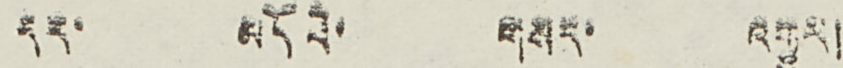དར་ མདོའི་ གསར་ འགྱུར་།
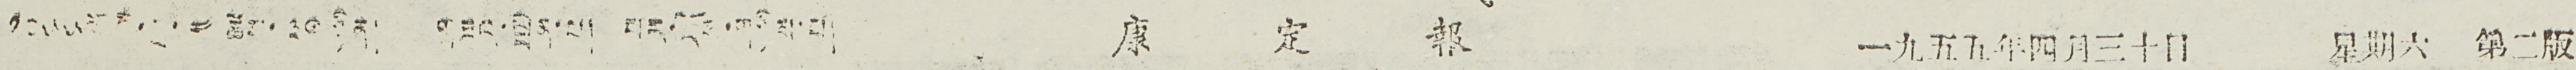༡༩༥༥ ལོའི་ཟླ་ ༤ ཚེས་ ༣༠ ཉིན། གཟའ་སྤེན་པ། པར་ངོས་གཉིས་པ། 康 定 報 一九五五年四月三十日 星期六 第二版
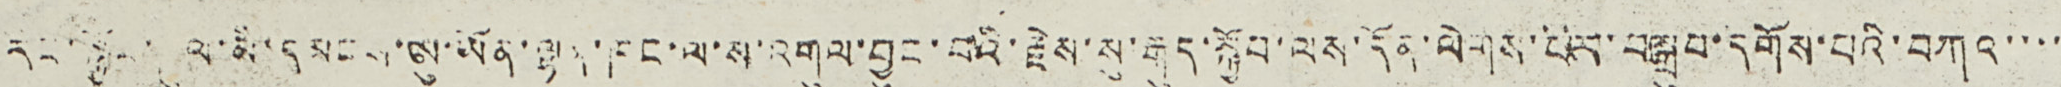རང་སྐྱོང་ཁུལ་མི་དམངས་ཨུ་ཡོན་ལྷན་ཁང་ལ་ས་འགུལ་བྱུང་བའི་རྗེས་སུ་རྒུད་སྐྱོབ་ལས་དོན་ལེགས་པར་བསྒྲུབ་དགོས་པའི་བཀའ་་་་
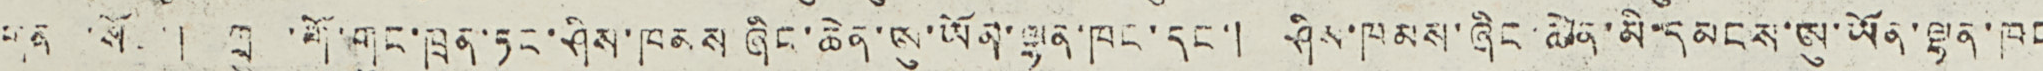གན ་སོང་། ཀྲུང་གོ་གུང་ཁྲན་ཏང་ཤིས་ཁམས ཞིང་ཆེན་ཨུ་ཡོན་ལྷན་ཁང་དང་། ཤིས་ཁམས་ཞིང་ཆེན་མི་དམངས་ཨུ་ཡོན་ལྷན་ཁང
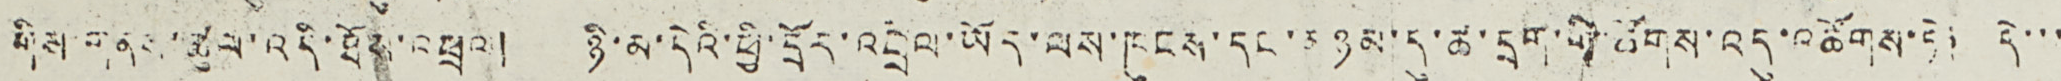གིས་གནས་ཚུལ་འདི་ཐོས་འཕྲལ། ཉི་མ་དེའི་ཕྱི་དྲོར་འབྲལ་ཡོད་ལས་ཁུངས་དང་མཉམ་དུ་ཚ་དྲག་གི་ཚོགས་འདུ་འཚོགས་ཏེ། དེ་་་
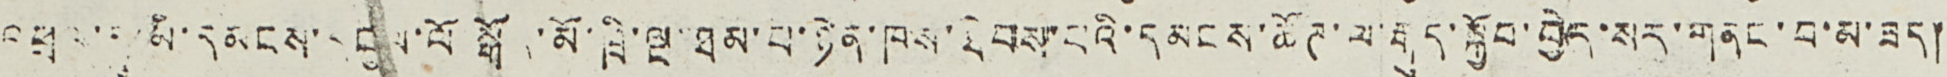འཕྲལ་དུ་མི་དམངས་བྱལ་ལོ སྒོར་མོ་ཁྲི་ལྔ་ཐམ་པ་ཉེན་ཁས་ཐེབས་པའི་དམངས་ཚོཊ་ལ་རྒུད་སྐྱོབ་བྱེད་སར་གནང་བ་མ་ཟད།
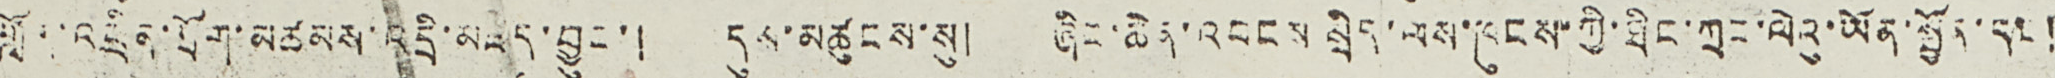གློག་འཕྲིན་ཐོག་མཚམས་འདྲི་མཛད་བྱུང་། དུས་མཚུངས་སུ། ཞིང་ཆེན་འབངས་སྲིད་ལས་ཁུངས་ཀྱི་ཐིང་ཀྲང་ལེའུ་ཡོན་སྤྱོན་དང །
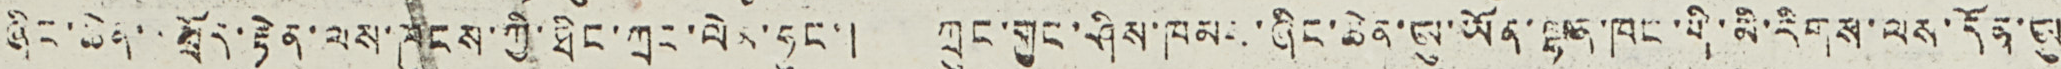ཞིང་ཆེན་འཕྲོད་རྟེན་ལས་ཁུངས་ཀྱི་ཐིང་ཀྲང་ལེམ་ཧུང་། ཀྲུང་གུང་ཤིས་ཁམས་ཞིང་ཆེན་ཨུ་ཡོན་ལྷན་ཁང་གི་མི་རིགས་ལས་དོན་ཨུ
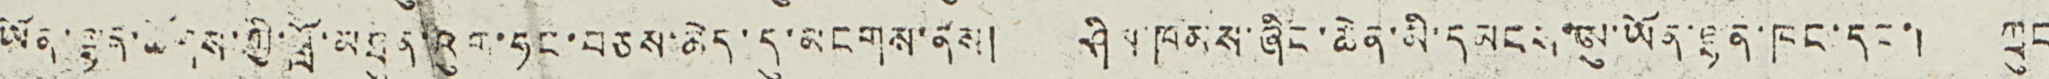ཡོན་ལྷན་ཚོགས་ཀྱི་བློ་མཐུན་འུག་ཧང་བཅས་ཆེད་དུ་མངགས་ནས། ཤིས་ཁམས་ཞིང་ཆེན་མི་དམངས་ཨུ་ཡོན་ལྷན་ཁང་དང་། ཀྲུང
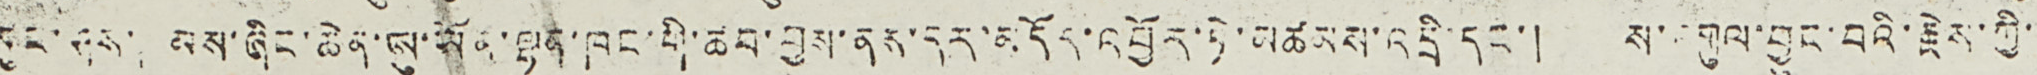གུང་ཤིས་ཁམས་ཞིང་ཆེན་ཨུ་ཡོན་ལྷན་ཁང་གི་ཚབ་བྱས་ནས་དར་མདོར་འབྱོར་ཏེ་མཚམས་འདྲི་དང་། ས་འགུལ་བྱུང་བའི་རྗེས་ཀྱི་་
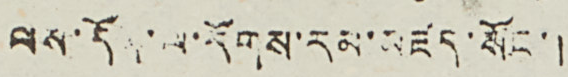ལས་དོན་ལ་རོགས་རམ་མཛད་སོང་།
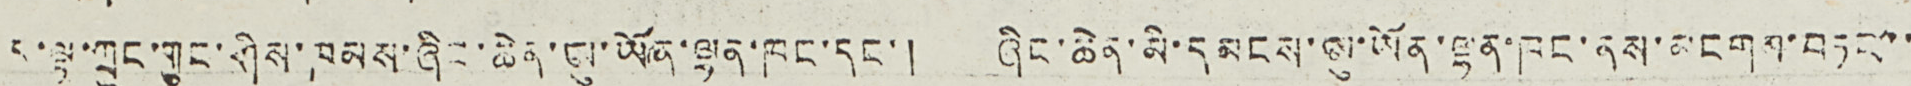ད་ལྟ་ཀྲུང་གུང་ཤིས་ཁམས་ཞིང་ཆེན་ཨུ་ཡོན་ལྷན་ཁང་དང་། ཞིང་ཆེན་མི་དམངས་ཨུ་ཡོན་ལྷན་ཁང་ནས་མངགས་བཏང་་
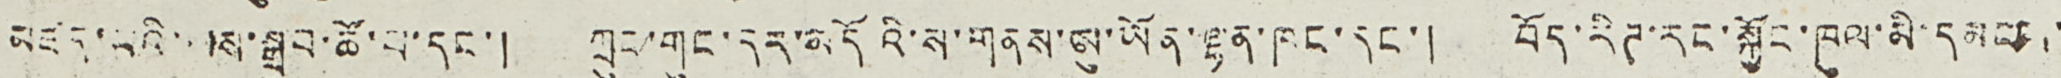མཛད་པའི་ལས་སྒྲུབ་ཚོ་བ་དང་། ཀྲུང་གུང་དར་མདོའི་ས་གནས་ཨུ་ཡོན་ལྷན་ཁང་དང་། བོད་རིཊ་རང་སྐྱོང་ཁུལ་མི་དམངས་
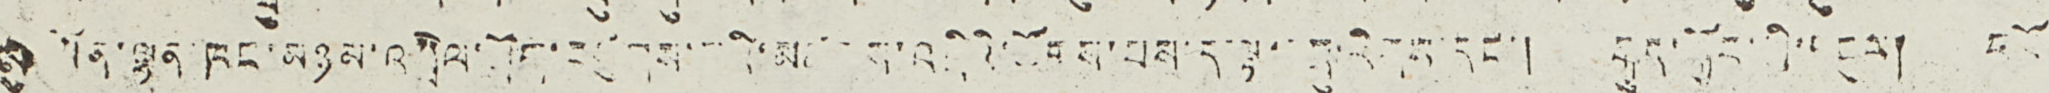ཨུ་ཡོན་ལྷན་ཁང་མཉམ་འབྲེལ་ ག་བཛུགས་  ་མཚམས་འདིའི་ཚོགས་པས་ད་ལྟ་  ་རིགས་དང་། རྒུད་སྐྱོབ་གི་ དུས། བཟོ་
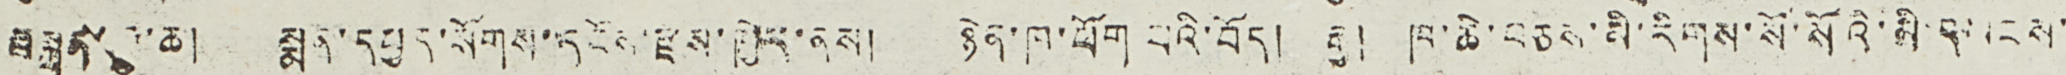བསྐྲུན་རྒྱུ་ཆ། སྨན་དཔྱད་སོགས་དངོས་རྫས་ཁྱེར་ནས། ཉེན་ཁ་ལོག་པའི་བོད། རྒྱུ། ཁ་ཆེ་བཅས་མི་རིགས་སོ་སོའི་མི་དམངས་
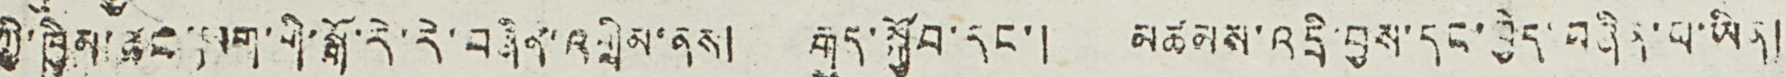ཀྱི་ཁྱིམ་ཚང་ཁག་གི་སྒོ་རེ་རེ་བཞིན་འགྲིམ་ནས། རྒུད་སྐྱོབ་དང་། མཚམས་འདི་བྱས་དང་བྱེད་བཞིན་པ་ཡིན།
